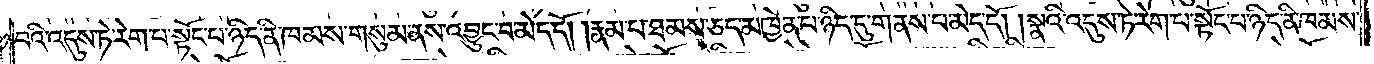བའི་འདུས་ཏེ་རེག་པ་སྟོང་པ་ཉིད་ནི་ཁམས་གསུམ་ནས་འབྱུང་བ་མེད་དོ། །རྣམ་པ་ཐམས་ཅད་མཁྱེན་པ་ཉིད་དུ་གནས་པ་མེད་དོ། །སྣའི་འདུས་ཏེ་རེག་པ་སྟོང་པ་ཉིད་ནི་ཁམས་
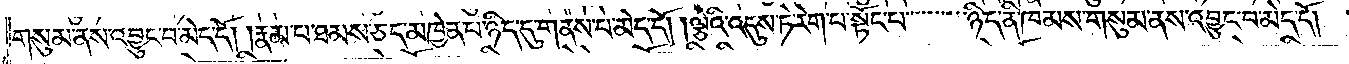གསུམ་ནས་འབྱུང་བ་མེད་དོ། །རྣམ་པ་ཐམས་ཅད་མཁྱེན་པ་ཉིད་དུ་གནས་པ་མེད་དོ། །ལྕེའི་འདུས་ཏེ་རེག་པ་སྟོང་པ་ཉིད་ནི་ཁམས་གསུམ་ནས་འབྱུང་བ་མེད་དོ། །
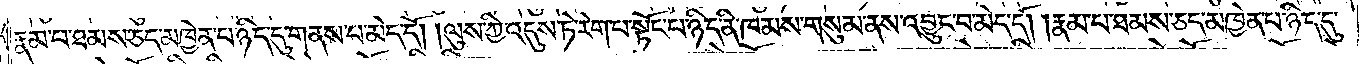རྣམ་པ་ཐམས་ཅད་མཁྱེན་པ་ཉིད་དུ་གནས་པ་མེད་དོ། །ལུས་ཀྱི་འདུས་ཏེ་རེག་པ་སྟོང་པ་ཉིད་ནི་ཁམས་གསུམ་ནས་འབྱུང་བ་མེད་དོ། །རྣམ་པ་ཐམས་ཅད་མཁྱེན་པ་ཉིད་དུ་
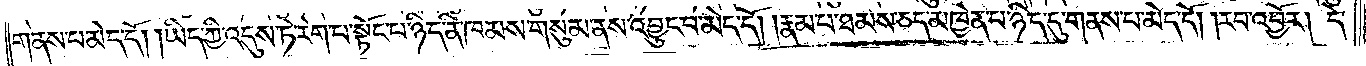གནས་པ་མེད་དོ། །ཡིད་ཀྱི་འདུས་ཏེ་རེག་པ་སྟོང་པ་ཉིད་ནི་ཁམས་གསུམ་ནས་འབྱུང་བ་མེད་དོ། །རྣམ་པ་ཐམས་ཅད་མཁྱེན་པ་ཉིད་དུ་གནས་པ་མེད་དོ། །རབ་འབྱོར། དེ་
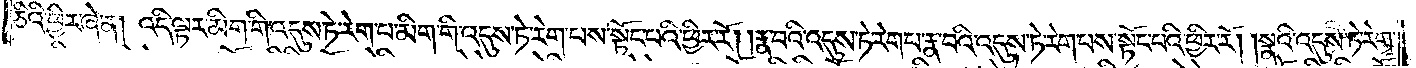ཅིའི་ཕྱིར་ཞེ་ན། འདི་ལྟར་མིག་གི་འདུས་ཏེ་རེག་པ་མིག་གི་འདུས་ཏེ་རེག་པས་སྟོང་པའི་ཕྱིར་རོ། །རྣ་བའི་འདུས་ཏེ་རེག་པ་རྣ་བའི་འདུས་ཏེ་རེག་པས་སྟོང་པའི་ཕྱིར་རོ། །སྣའི་འདུས་ཏེ་རེག་
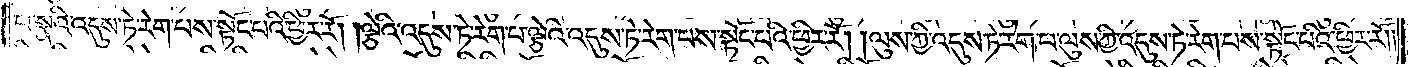པ་སྣའི་འདུས་ཏེ་རེག་པས་སྟོང་པའི་ཕྱིར་རོ། །ལྕེའི་འདུས་ཏེ་རེག་པ་ལྕེའི་འདུས་ཏེ་རེག་པས་སྟོང་པའི་ཕྱིར་རོ། །ལུས་ཀྱི་འདུས་ཏེ་རེག་པ་ལུས་ཀྱི་འདུས་ཏེ་རེག་པས་སྟོང་པའི་ཕྱིར་རོ༎
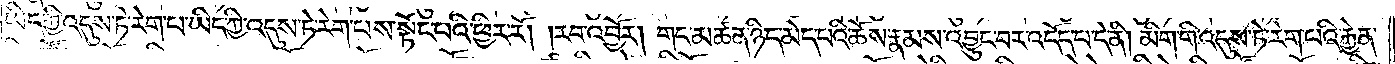ཡིད་ཀྱི་འདུས་ཏེ་རེག་པ་ཡིད་ཀྱི་འདུས་ཏེ་རེག་པས་སྟོང་པའི་ཕྱིར་རོ། །རབ་འབྱོར། གང་མཚན་ཉིད་མེད་པའི་ཆོས་རྣམས་འབྱུང་བར་འདོད་པ་དེ་ནི། མིག་གི་འདུས་ཏེ་རེག་པའི་རྐྱེན་
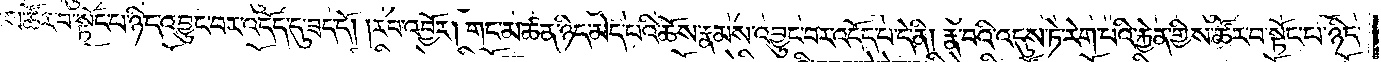གྱིས་ཚོར་བ་སྟོང་པ་ཉིད་འབྱུང་བར་འདོད་དུ་ཟད་དོ། །རབ་འབྱོར། གང་མཚན་ཉིད་མེད་པའི་ཆོས་རྣམས་འབྱུང་བར་འདོད་པ་དེ་ནི། རྣ་བའི་འདུས་ཏེ་རེག་པའི་རྐྱེན་གྱིས་ཚོར་བ་སྟོང་པ་ཉིད་
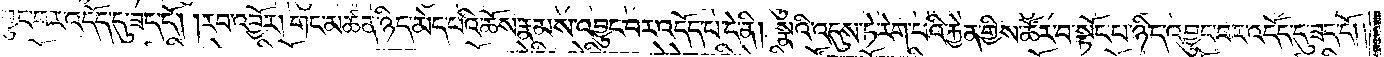འབྱུང་བར་འདོད་དུ་ཟད་དོ། །རབ་འབྱོར། གང་མཚན་ཉིད་མེད་པའི་ཆོས་རྣམས་འབྱུང་བར་འདོད་པ་དེ་ནི། སྣའི་འདུས་ཏེ་རེག་པའི་རྐྱེན་གྱིས་ཚོར་བ་སྟོང་པ་ཉིད་འབྱུང་བར་འདོད་དུ་ཟད་དོ། །
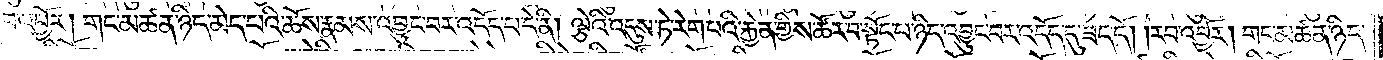རབ་འབྱོར། གང་མཚན་ཉིད་མེད་པའི་ཆོས་རྣམས་འབྱུང་བར་འདོད་པ་དེ་ནི། ལྕེའི་འདུས་ཏེ་རེག་པའི་རྐྱེན་གྱིས་ཚོར་བ་སྟོང་པ་ཉིད་འབྱུང་བར་འདོད་དུ་ཟད་དོ། །རབ་འབྱོར། གང་མཚན་ཉིད་
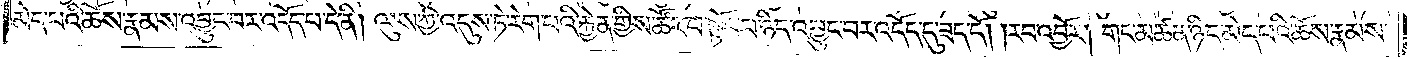མེད་པའི་ཆོས་རྣམས་འབྱུང་བར་འདོད་པ་དེ་ནི། ལུས་ཀྱི་འདུས་ཏེ་རེག་པའི་རྐྱེན་གྱིས་ཚོར་བ་སྟོང་པ་ཉིད་འབྱུང་བར་འདོད་དུ་ཟད་དོ། །རབ་འབྱོར། གང་མཚན་ཉིད་མེད་པའི་ཆོས་རྣམས་
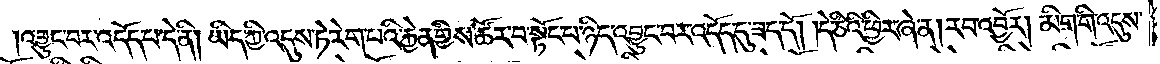འབྱུང་བར་འདོད་པ་དེ་ནི། ཡིད་ཀྱི་འདུས་ཏེ་རེག་པའི་རྐྱེན་གྱིས་ཚོར་བ་སྟོང་པ་ཉིད་འབྱུང་བར་འདོད་དུ་ཟད་དོ། །དེ་ཅིའི་ཕྱིར་ཞེ་ན། རབ་འབྱོར། མིག་གི་འདུས་
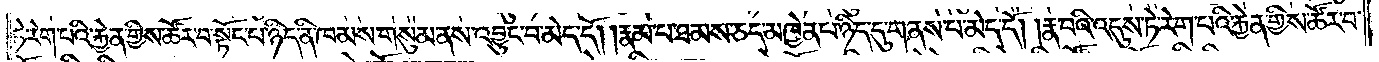ཏེ་རེག་པའི་རྐྱེན་གྱིས་ཚོར་བ་སྟོང་པ་ཉིད་ནི་ཁམས་གསུམ་ནས་འབྱུང་བ་མེད་དོ། །རྣམ་པ་ཐམས་ཅད་མཁྱེན་པ་ཉིད་དུ་གནས་པ་མེད་དོ། །རྣ་བའི་འདུས་ཏེ་རེག་པའི་རྐྱེན་གྱིས་ཚོར་བ་
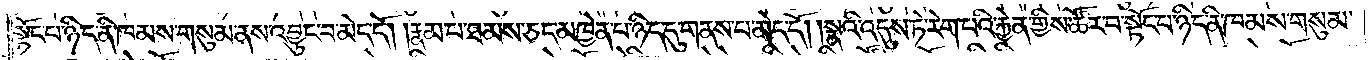སྟོང་པ་ཉིད་ནི་ཁམས་གསུམ་ནས་འབྱུང་བ་མེད་དོ། །རྣམ་པ་ཐམས་ཅད་མཁྱེན་པ་ཉིད་དུ་གནས་པ་མེད་དོ། །སྣའི་འདུས་ཏེ་རེག་པའི་རྐྱེན་གྱིས་ཚོར་བ་སྟོང་པ་ཉིད་ནི་ཁམས་གསུམ་
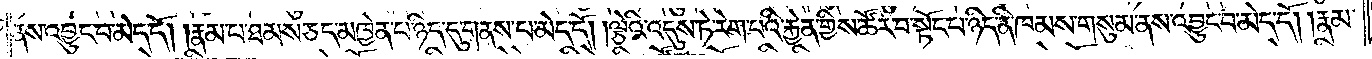ནས་འབྱུང་བ་མེད་དོ། །རྣམ་པ་ཐམས་ཅད་མཁྱེན་པ་ཉིད་དུ་གནས་པ་མེད་དོ། །ལྕེའི་འདུས་ཏེ་རེག་པའི་རྐྱེན་གྱིས་ཚོར་བ་སྟོང་པ་ཉིད་ནི་ཁམས་གསུམ་ནས་འབྱུང་བ་མེད་དོ། །རྣམ་
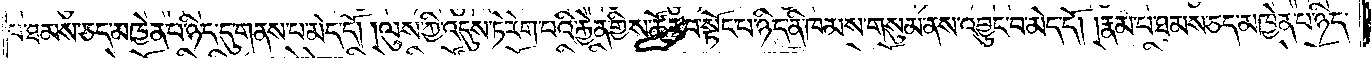པ་ཐམས་ཅད་མཁྱེན་པ་ཉིད་དུ་གནས་པ་མེད་དོ། །ལུས་ཀྱི་འདུས་ཏེ་རེག་པའི་རྐྱེན་གྱིས་ཚོར་བ་སྟོང་པ་ཉིད་ནི་ཁམས་གསུམ་ནས་འབྱུང་བ་མེད་དོ། །རྣམ་པ་ཐམས་ཅད་མཁྱེན་པ་ཉིད་
